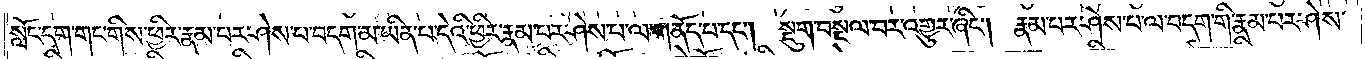སློང་དག་གང་གི་ཕྱིར་རྣམ་པར་ཤེས་པ་བདག་མ་ཡིན་པ་དེའི་ཕྱིར་རྣམ་པར་ཤེས་པ་ལ་གནོད་པ་དང༌། སྡུག་བསྔལ་བར་འགྱུར་ཞིང༌། རྣམ་པར་ཤེས་པ་ལ་བདག་གི་རྣམ་པར་ཤེས་
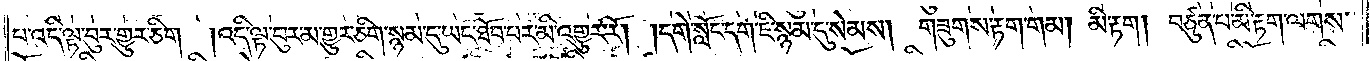པ་འདི་ལྟ་བུར་གྱུར་ཅིག །འདི་ལྟ་བུར་མ་གྱུར་ཅིག་སྙམ་དུ་ཡང་ཐོབ་པར་མི་འགྱུར་རོ། །དགེ་སློང་དག་ཇི་སྙམ་དུ་སེམས། གཟུགས་རྟག་གམ། མི་རྟག། བཙུན་པ་མི་རྟག་ལགས་
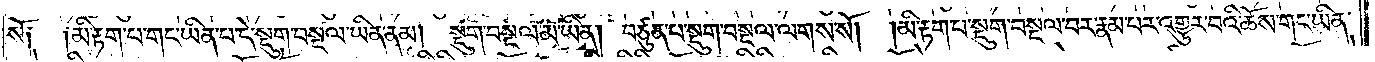སོ༑  ༑མི་རྟག་པ་གང་ཡིན་པ་དེ་སྡུག་བསྔལ་ཡིན་ནམ། སྡུག་བསྔལ་མ་ཡིན། བཙུན་པ་སྡུག་བསྔལ་ལགས་སོ། །མི་རྟག་པ་སྡུག་བསྔལ་བར་རྣམ་པར་འགྱུར་བའི་ཆོས་གང་ཡིན་
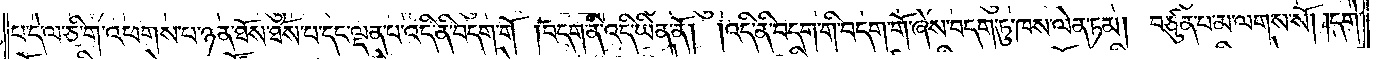པ་དེ་ལ་ཅི་ག་འཕགས་པ་ཉན་ཐོས་ཐོས་པ་དང་ལྡན་པ་འདི་ནི་བདག་གོ །བདག་ནི་འདི་ཡིན་ནོ། །འདི་ནི་བདག་གི་བདག་གོ་ཞེས་བདག་ཏུ་ཁས་ལེན་ཏམ། བཙུན་པ་མ་ལགས་སོ། །དགེ་
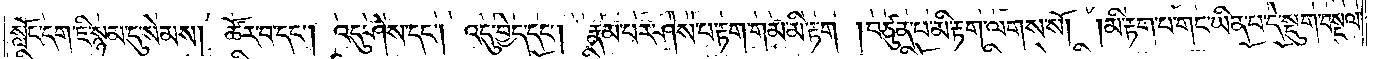སློང་དག་ཇི་སྙམ་དུ་སེམས། ཚོར་བ་དང༌། འདུ་ཤེས་དང༌། འདུ་བྱེད་དང༌། རྣམ་པར་ཤེས་པ་རྟག་གམ་མི་རྟག །བཙུན་པ་མི་རྟག་ལགས་སོ། །མི་རྟག་པ་གང་ཡིན་པ་དེ་སྡུག་བསྔལ་
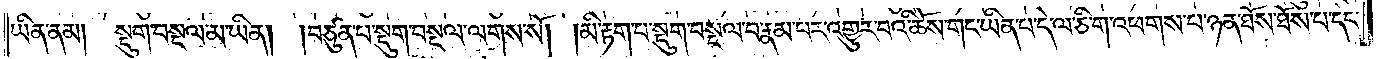ཡིན་ནམ། སྡུག་བསྔལ་མ་ཡིན། །བཙུན་པ་སྡུག་བསྔལ་ལགས་སོ། །མི་རྟག་པ་སྡུག་བསྔལ་བ་རྣམ་པར་འགྱུར་བའི་ཆོས་གང་ཡིན་པ་དེ་ལ་ཅིག་འཕགས་པ་ཉན་ཐོས་ཐོས་པ་དང་
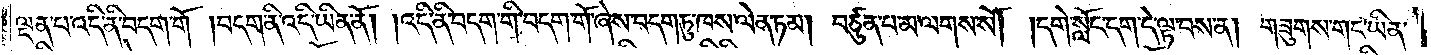ལྡན་པ་འདི་ནི་བདག་གོ །བདག་ནི་འདི་ཡིན་ནོ། །འདི་ནི་བདག་གི་བདག་གོ་ཞེས་བདག་ཏུ་ཁས་ལེན་ཏམ། བཙུན་པ་མ་ལགས་སོ། །དགེ་སློང་དག་དེ་ལྟ་བས་ན། གཟུགས་གང་ཡིན་
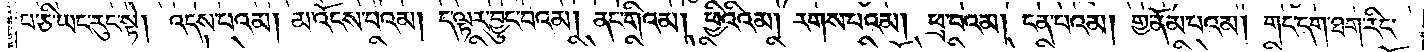པ་ཅི་ཡང་རུང་སྟེ། འདས་པའམ། མ་འོངས་པའམ། ད་ལྟར་བྱུང་བའམ། ནང་གིའམ། ཕྱིའིའམ། རགས་པའམ། ཕྲ་བའམ། ངན་པའམ། གྱ་ནོམ་པའམ། གང་དག་ཐག་རིང་
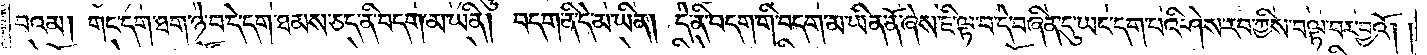བའམ། གང་དག་ཐག་ཉེ་བ་དེ་དག་ཐམས་ཅད་ནི་བདག་མ་ཡིན། བདག་ནི་དེ་མ་ཡིན། དེ་ནི་བདག་གི་བདག་མ་ཡིན་ནོ་ཞེས་ཇི་ལྟ་བ་དེ་བཞིན་དུ་ཡང་དག་པའི་ཤེས་རབ་ཀྱིས་བལྟ་བར་བྱའོ། །
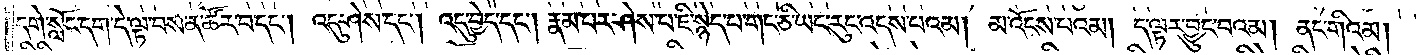དགེ་སློང་དག་དེ་ལྟ་བས་ན་ཚོར་བ་དང༌། འདུ་ཤེས་དང༌། འདུ་བྱེད་དང༌། རྣམ་པར་ཤེས་པ་ཇི་སྙེད་པ་གང་ཅི་ཡང་རུང་འདས་པའམ། མ་འོངས་པའམ། ད་ལྟར་བྱུང་བའམ། ནང་གིའམ།
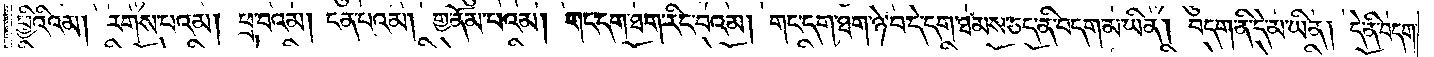ཕྱིའིའམ། རགས་པའམ། ཕྲ་བའམ། ངན་པའམ། གྱ་ནོམ་པའམ། གང་དག་ཐག་རིང་བའམ། གང་དག་ཐག་ཉེ་བ་དེ་དག་ཐམས་ཅད་ནི་བདག་མ་ཡིན། བདག་ནི་དེ་མ་ཡིན། དེ་ནི་བདག་
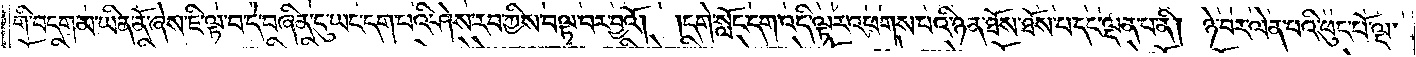གི་བདག་མ་ཡིན་ནོ་ཞེས་ཇི་ལྟ་བ་དེ་བཞིན་དུ་ཡང་དག་པའི་ཤེས་རབ་ཀྱིས་བལྟ་བར་བྱའོ། །དགེ་སློང་དག་འདི་ལྟར་འཕགས་པའི་ཉན་ཐོས་ཐོས་པ་དང་ལྡན་པ་ནི། ཉེ་བར་ལེན་པའི་ཕུང་པོ་ལྔ་
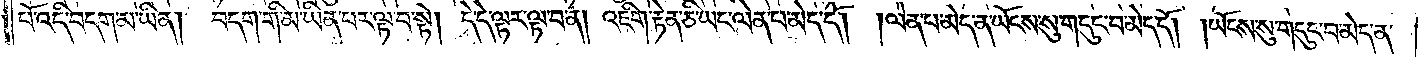པོ་འདི་བདག་མ་ཡིན། བདག་གི་མ་ཡིན་པར་ལྟ་བ་སྟེ། དེ་དེ་ལྟར་ལྟ་བ་ན། འཇིག་རྟེན་ཅི་ཡང་ལེན་པ་མེད་དོ། །ལེན་པ་མེད་ན་ཡོངས་སུ་གདུང་བ་མེད་དོ། །ཡོངས་སུ་གདུང་བ་མེད་ན་
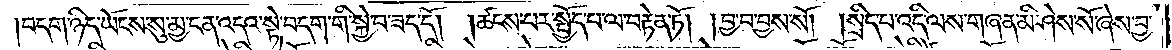བདག་ཉིད་ཡོངས་སུ་མྱ་ངན་འདའ་སྟེ་བདག་གི་སྐྱེ་བ་ཟད་དོ། །ཚངས་པར་སྤྱོད་པ་ལ་བརྟེན་ཏོ། །བྱ་བ་བྱས་སོ། །སྲིད་པ་འདི་ལས་གཞན་མི་ཤེས་སོ་ཞེས་བྱ་
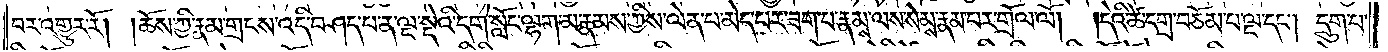བར་འགྱུར་རོ། །ཆོས་ཀྱི་རྣམ་གྲངས་འདི་བཤད་པ་ན་ལྔ་སྡེའི་དགེ་སློང་ལྷག་མ་རྣམས་ཀྱིས་ལེན་པ་མེད་པར་ཟག་པ་རྣམས་ལས་སེམས་རྣམ་པར་གྲོལ་ལོ། །དེའི་ཚེ་དགྲ་བཅོམ་པ་ལྔ་དང༌། དྲུག་པ་
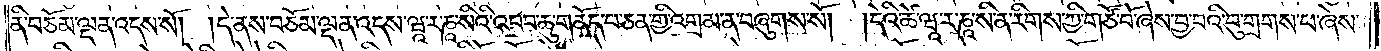ནི་བཅོམ་ལྡན་འདས་སོ། །དེ་ནས་བཅོམ་ལྡན་འདས་ཝཱ་ར་ཎཱ་སིའི་འབབ་ཆུ་གནོད་པ་ཅན་གྱི་འགྲམ་ན་བཞུགས་སོ། །དེའི་ཚེ་ཝཱ་ར་ཎཱ་སི་ན་རིགས་ཀྱི་གཙོ་བོ་ཞེས་བྱ་བའི་བུ་གྲགས་པ་ཞེས་
